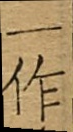一作
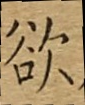欲
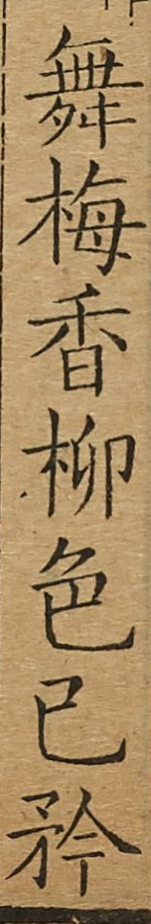舞梅香柳色已矜
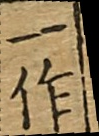一作
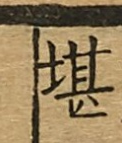堪
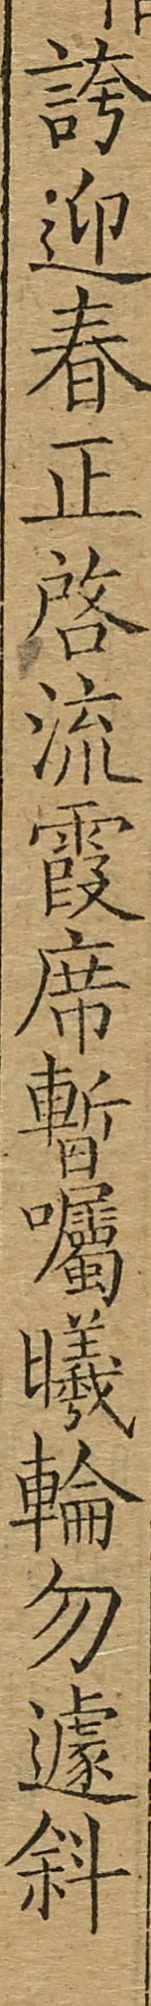誇迎春正啓流霞席暫囑曦輪勿遽斜
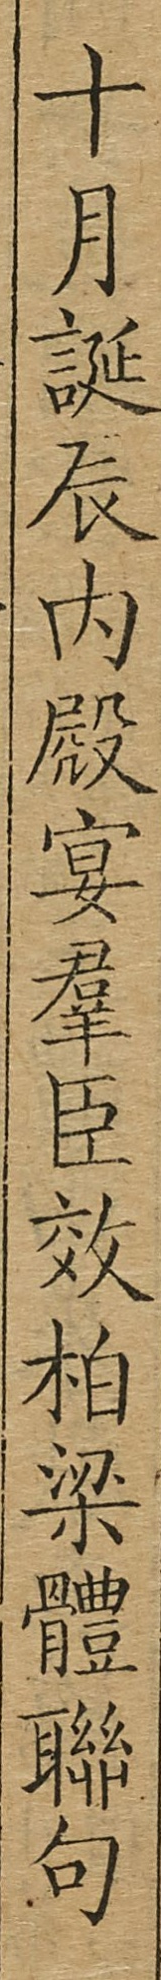十月誕辰內殿宴羣臣效柏梁體聯句
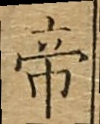帝
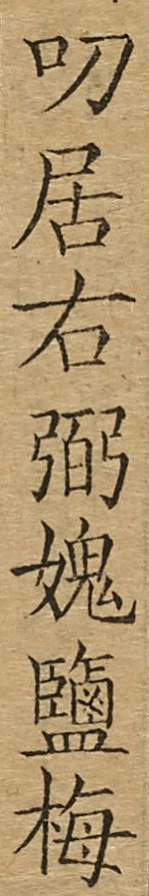叨居右弼愧鹽梅
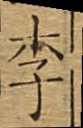李
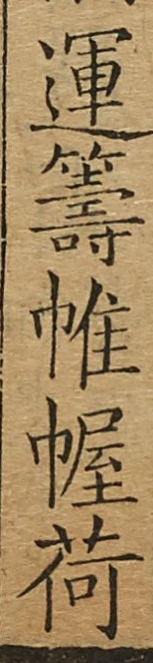運籌帷幄荷
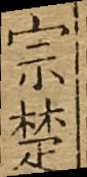宗楚
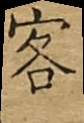客
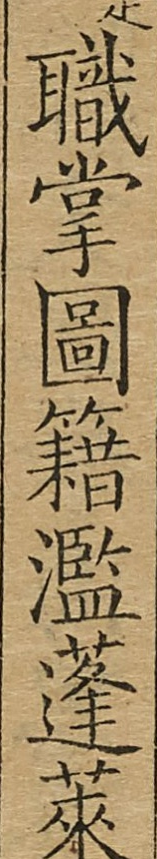職掌圖籍濫蓬萊
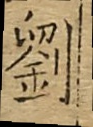劉
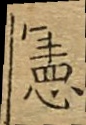憲
